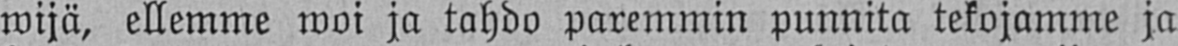wijä, ellemme woi ja tahdo paremmin punnita tekojamme ja
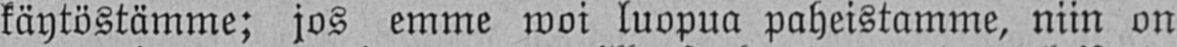käytöstämme; jos emme woi luopua paheistamme, niin on
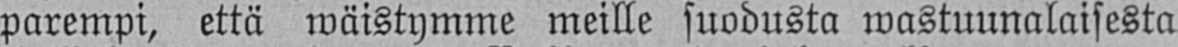parempi, että wäistymme meille suodusta wastuunalaisesta
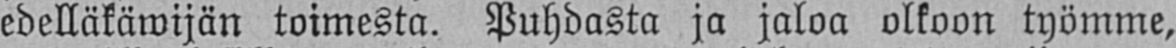edelläkäwijän toimesta. Puhdasta ja jaloa olkoon työmme,
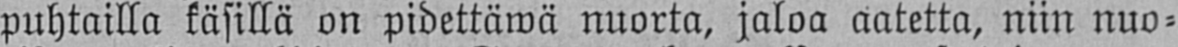puhtailla käsillä on pidettäwä nuorta, jaloa aatetta, niin nuo-
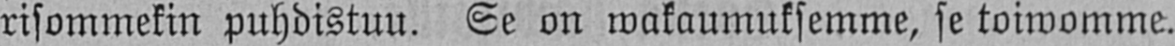risommekin puhdistuu. Se on wakaumuksemme, se toiwomme.
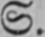S.
